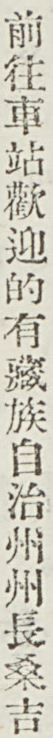前往車站歡迎的有藏族自治州州長桑吉
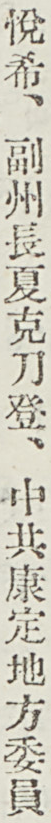悅希、副州長夏克刀登、中共康定地方委員
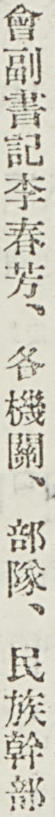會副書記李春芳、各機關、部隊、民族幹部
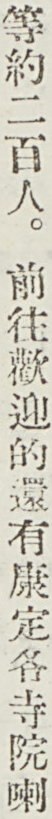等約二百人。前往歡迎的還有康定各寺院喇
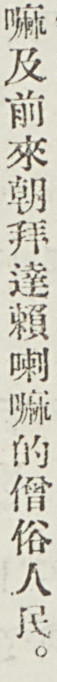嘛及前來朝拜達賴喇嘛的僧俗人民。
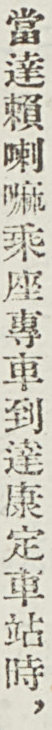當達賴喇嘛乘坐專車到達康定車站時，
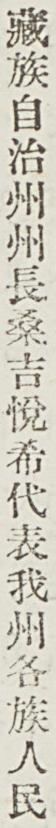藏族自治州州長桑吉悅希代表我州各族人民
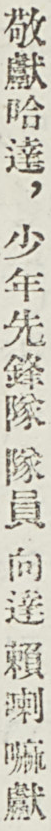敬獻哈達，少年先鋒隊隊員向達賴喇嘛獻
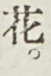花。
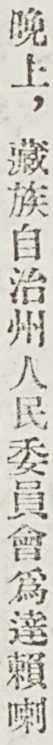晚上，藏族自治州人民委員會爲達賴喇
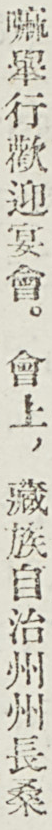嘛舉行歡迎宴會。會上，藏族自治州州長桑
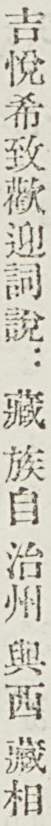吉悅希致歡迎詞說：藏族自治州與西藏相
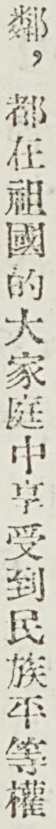鄰，都在祖國的大家庭中享受到民族平等權
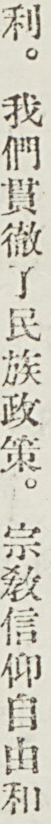利。我們貫徹了民族政策。宗敎信仰自由和
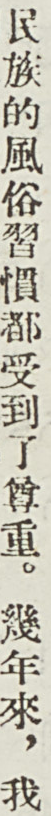民族的風俗習慣都受到了尊重。幾年來，我
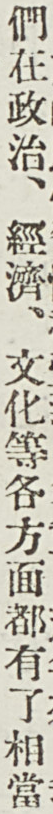們在政治、經濟、文化等各方面都有了相當
